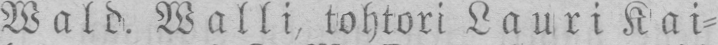Wald. Walli, tohtori Lauri Kai-
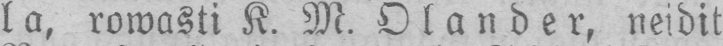la, rowasti K. M. Olander, neidit
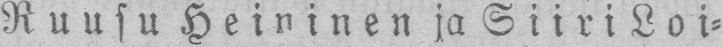Ruusu H eininen ja Siiri Loi-
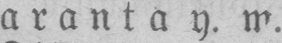maranta y. m.
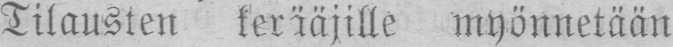Tilausten kerääjille myönnetään
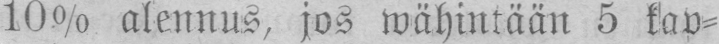10% alennus, jos wähintään 5 kap-
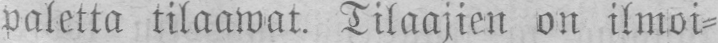paletta tilaawat. Tilaajien on ilmoi-
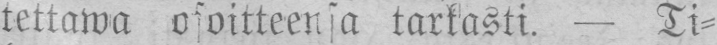tettawa osoitteensa tarkasti. — Ti-
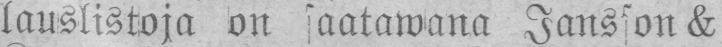lauslistoja on saatawana Jansson &
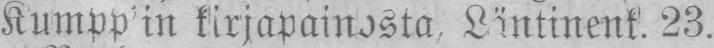Kumpp'in kirjapainosta, Läntinenk. 23.
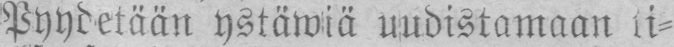Pyydetään ystäwiä uudistamaan ti-
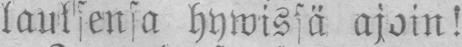lauksensa hywissä ajoin!
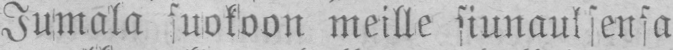Jumala suokoon meille siunauksensa
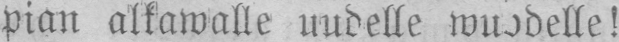pian alkawalle uudelle wuodelle!
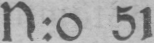N:o 51
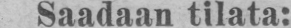Saadaan tilata: postikont-
